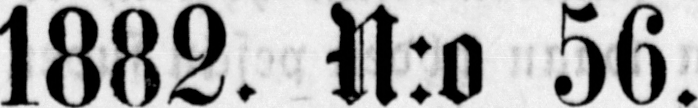1882. n:o 56.
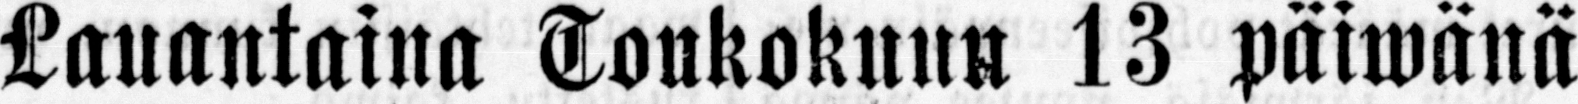Lauantaina Toukokuun 13 päiw ä nä
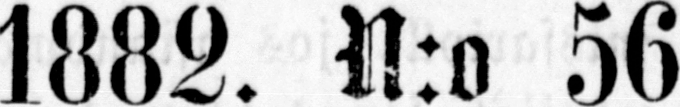1882. n:a 56
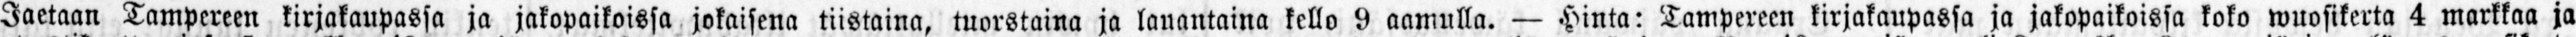Jaetaan Tampereen kirjakaupassa ja jakopaikoissa jokaisena tiistaina, tuorstaina ja lauantaina kello 9 aamulla. — Hinta: Tampereen kirjakaupassa ja jakopaikoissa koko wuosikerta 4 markkaa ja
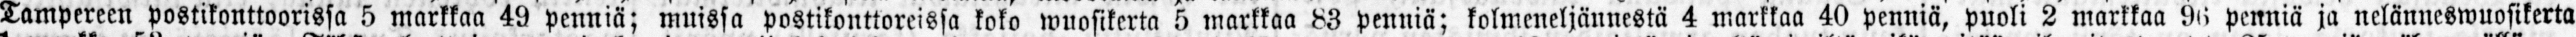Tampereen postikonttoorissa 5 markkaa 49 penniä; muissa postikonttoreissa koko wuosikerta 5 markkaa 83 Penniä; kolmeneljännestä 4 markkaa 40 penniä, puoli 2 markkaa 96 penniä ja nelänneswuosikerta
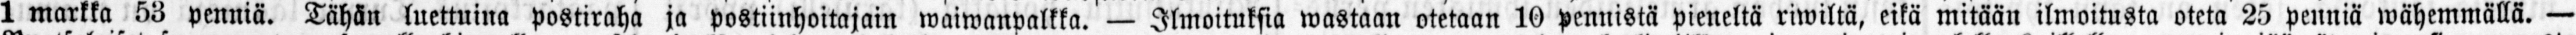1 markka 53 penniä. Tähän luettuina postiraha ja postiinhoitajain waiwanpalkka. — Ilmoituksia wastaan otetaan 10 pennistä pieneltä riwiltä, eikä mitään ilmoitusta oteta 25 penniä wähemmällä. —
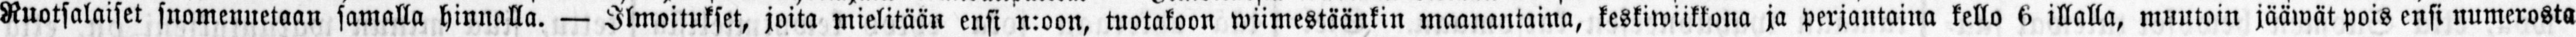Ruotsalaiset snomennetaan samalla hinnalla. — Ilmoitukset, joita mielitään ensi n:oon, tuotakoon wiimestäänkin maanantaina, keskiwiikkona ja perjantaina kello 6 illalla, muutoin jääwät pois ensi numerosta
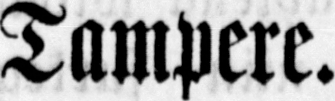Tampere. Tampere.
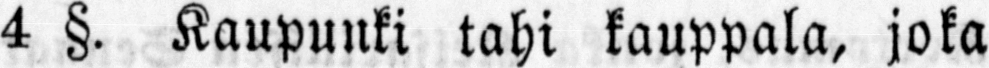4 §. Kaupunki tahi kauppala, joka
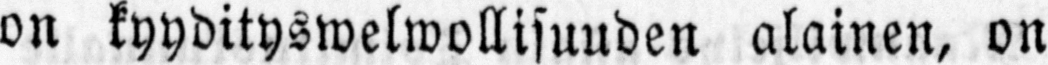on kyydityswelwollisuuden alainen, on
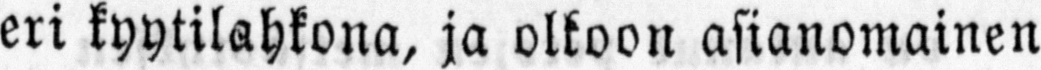eri kyytilahkona, ja olkoon asianomainen
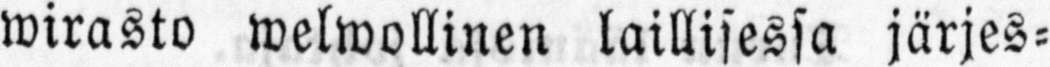wirasko welwollinen laillisessa järjes-
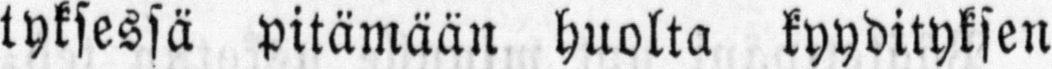tyksessä pitämään huolta kyydityksen
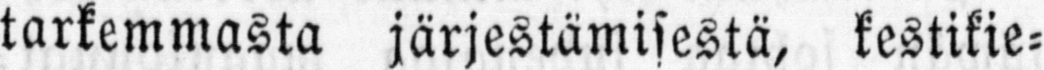tarkemmasta järjestämisestä, kestikie-
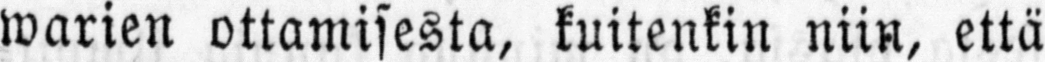warien ottamisesta, kuitenkin niin, että
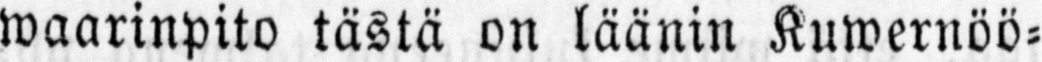waarinpito tästä on läänin Kuwernöö-
